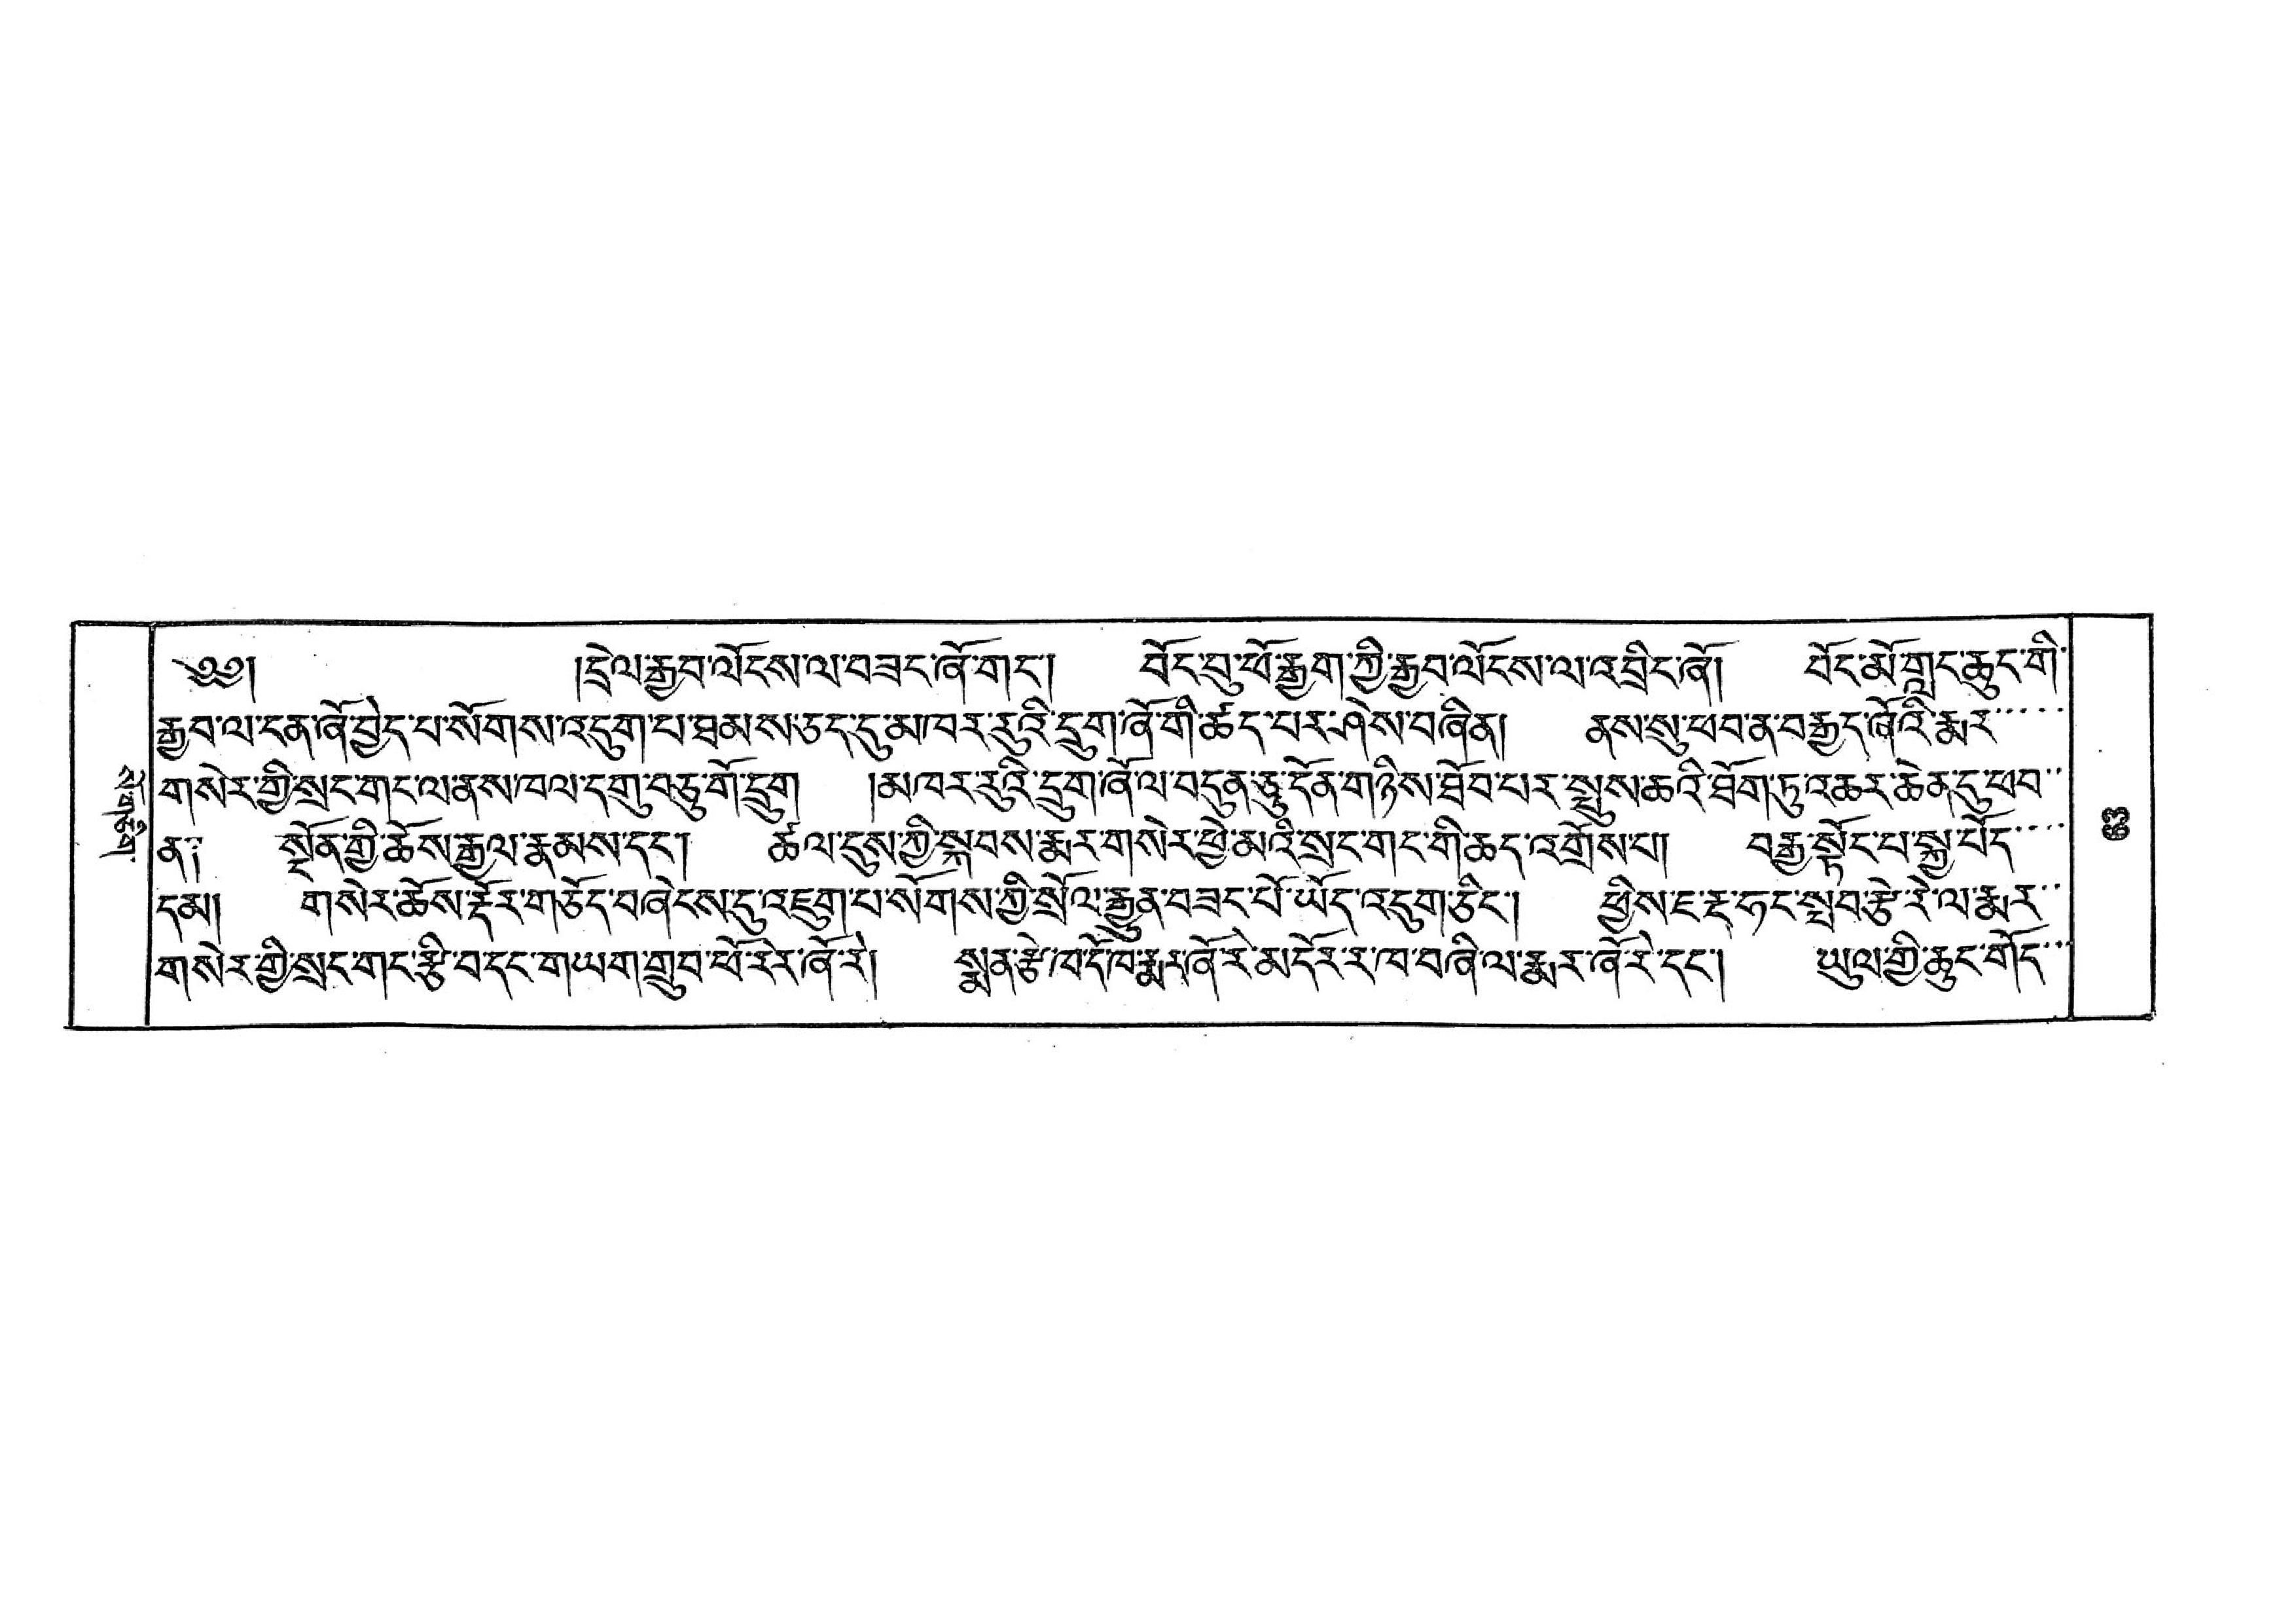སོ་གཅིག་
༄༅།  །དྲེལ་རྒྱབ་ལོངས་ལ་བཟང་ཞོ་གང་། བོང་བུ་ཕོ་རྒྱག་ཀྱི་རྒྱབ་ལོངས་ལ་འབྲིང་ཞོ། བོང་མོ་གླང་ཆུང་གི་
རྒྱབ་ལ་ངན་ཞོ་བྱེད་པ་སོགས་འདུག་པ་ཐམས་ཅད་དུ་མ་ཁར་རུའི་དྲུག་ཞོ་གི་ཚད་པར་ཤེས་བཞིན། ནས་སུ་ཕབ་ན་བརྒྱད་ཞོའི་རྨར་་་་་
གསེར་གྱི་སྲང་གང་ལ་ནས་ཁལ་དགུ་བཅུ་གོ་དྲུག །མཁར་རུའི་དྲུག་ཞོ་ལ་བདུན་ཅུ་དོན་གཉིས་ཐོབ་པར་སྤུས་ཆའི་ཐོག་ཏུ་འཆར་ཆེན་དུ་ཕུབ་་
ན༑ སྔོན་གྱི་ཆོས་རྒྱལ་རྣམས་དང་། ཚལ་དུས་ཀྱི་སྐབས་རྨར་གསེར་ཕྱེ་མའི་སྲང་གང་གི་ཆད་འགྲོས་པ། བརྒྱ་སྟོང་པ་སྐྱ་པོད་་་་
དམ། གསེར་ཆོས་རྡོར་གཅོད་བཞེངས་དུ་འཇུག་པ་སོགས་ཀྱི་སྲོལ་རྒྱུན་བཟང་པོ་ཡོད་འདུག་ཅིང་། ཕྱིས་ཇ་རྔ་ཧང་སྤབ་རྩེ་རེ་ལ་རྨར་་
གསེར་གྱི་སྲང་གང་རྩི་བ་དང་གཡོག་གྲུབ་ཕོ་རེར་ཞོ་རེ། སྨན་རྩེ་ཁ་དོ་ཁ་རྨར་ཞོ་རེ་མདོར་ར་ཁ་བཞི་ལ་རྨར་ཞོ་རེ་དང་། ཡུལ་གྱི་ཆུང་གོད་་་
